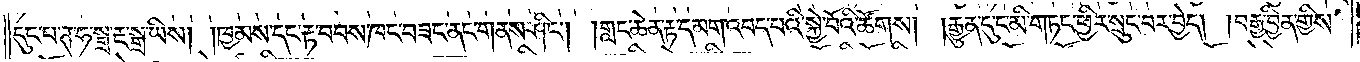དུང་པ་ཊ་ཧ་སྒྲ་རྔ་སྒྲ་ཡིས། །ཁྱམས་དང་རྟ་བབས་ཁང་བཟང་ནང་གནས་ཤིང༌། །གླང་ཆེན་རྟ་དམག་འབད་པའི་སྐྱེ་བོའི་ཚོགས། །རྒྱུན་དུ་ང་མི་གཏང་ཕྱིར་སྲུང་བར་བྱེད། །བརྒྱ་བྱིན་གྱིས་
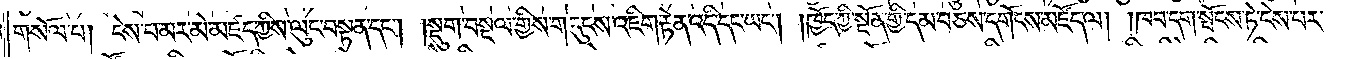གསོལ་པ། དེས་པ་མར་མེ་མཛད་ཀྱིས་ལུང་བསྟན་དང༌། །སྡུག་བསྔལ་གྱིས་གདུངས་འཇིག་རྟེན་འདི་དང་ཡང༌། །ཁྱོད་ཀྱི་སྔོན་གྱི་དམ་བཅས་དགོངས་མཛོད་ལ། །ཁབ་དག་སྤོངས་ཏེ་ངེས་པར་
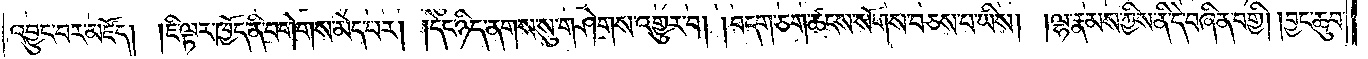འབྱུང་བར་མཛོད། །ཇི་ལྟར་ཁྱོད་ནི་བགེགས་མེད་པར། །དེང་ཉིད་ནགས་སུ་གཤེགས་འགྱུར་བ། །བདག་ཅག་ཚངས་སོགས་བཅས་པ་ཡིས། །ལྷ་རྣམས་ཀྱིས་ནི་དེ་བཞིན་བགྱི། །བྱང་ཆུབ་
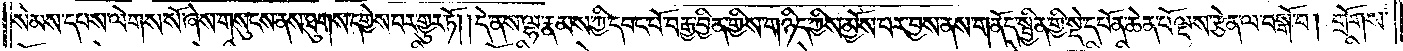སེམས་དཔས་ལེགས་སོ་ཞེས་གསུངས་ནས་ཐུགས་དགྱེས་པར་འགྱུར་ཏོ། །དེ་ནས་ལྷ་རྣམས་ཀྱི་དབང་པོ་བརྒྱ་བྱིན་གྱིས་གཉིད་ཀྱིས་མྱོས་པར་བྱས་ནས་གནོད་སྦྱིན་གྱི་སྡེ་དཔོན་ཆེན་པོ་ལྔས་རྩེན་ལ་བསྒོ་བ། སྒྲོགས་
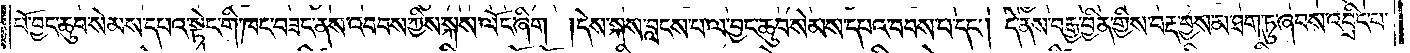པོ་བྱང་ཆུབ་སེམས་དཔའ་སྟེང་གི་ཁང་བཟང་ནས་འབབས་ཀྱིས་སྐས་ལོང་ཞིག །དེས་སྐས་བླངས་པ་ལ་བྱང་ཆུབ་སེམས་དཔའ་བབས་པ་དང༌། དེ་ནས་བརྒྱ་བྱིན་གྱིས་བརྡ་བྱས་མ་ཐག་ཏུ་ཞབས་འབྲིང་པ་
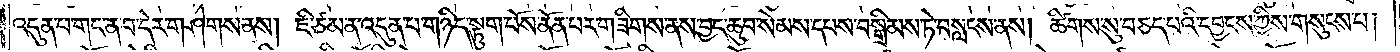འདུན་པ་གང་ན་བ་དེར་གཤེགས་ནས། ཇི་ཙམ་ན་འདུན་པ་གཉིད་སྟུག་པོས་ནོན་པར་གཟིགས་ནས་བྱང་ཆུབ་སེམས་དཔས་བསྒྲིམས་ཏེ་བསླངས་ནས། ཚིགས་སུ་བཅད་པའི་དབྱངས་ཀྱིས་གསུངས་པ།
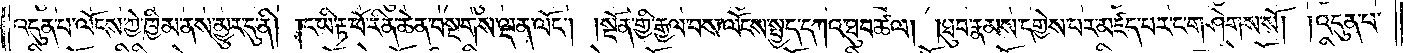འདུན་པ་ལོངས་ཀྱེ་ཁྱིམ་ནས་མྱུར་དུ་ནི། །ང་ཡི་རྟ་ཕོ་རིན་ཆེན་བསྔགས་ལྡན་ལོང༌། །སྔོན་གྱི་རྒྱལ་བས་ལོངས་སྤྱད་དཀའ་ཐུབ་ཚལ། །ཐུབ་རྣམས་དགྱེས་པར་མཛད་པར་ང་གཤེགས་སོ། །འདུན་པ་
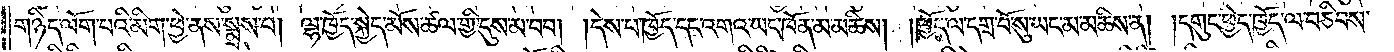གཉིད་ལོག་པའི་མིག་ཕྱེ་ནས་སྨྲས་པ། ལྷ་ཁྱོད་སྐྱེད་མོས་ཚལ་གྱི་དུས་མ་བབ། །དེས་པ་ཁྱོད་དང་འགའ་ཡང་ཁོན་མ་མཆིས། །ཁྱོད་ལ་དགྲ་བོ་སུ་ཡང་མ་མཆིས་ན། །དགུང་ཕྱེད་ཁྱོད་ལ་བཅིབས་
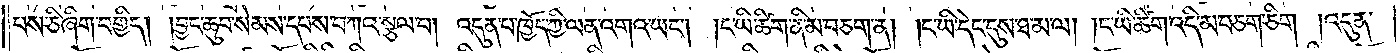པས་ཅི་ཞིག་བགྱིད། །བྱང་ཆུབ་སེམས་དཔས་བཀའ་སྩལ་པ། འདུན་པ་ཁྱོད་ཀྱི་ལན་འགའ་ཡང༌། །ང་ཡི་ཚིག་ནི་མ་བཅག་ན། །ང་ཡི་དེང་དུས་ཐ་མ་ལ། །ང་ཡི་ཚིག་འདི་མ་བཅག་ཅིག །འདུན་
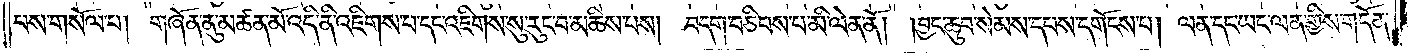པས་གསོལ་པ། གཞོན་ནུ་མཚན་མོ་འདི་ནི་འཇིགས་པ་དང་འཇིགས་སུ་རུང་བ་མཆིས་པས། བདག་བཅིབས་པ་མི་ལེན་ནོ། །བྱང་ཆུབ་སེམས་དཔས་དགོངས་པ། ལན་དང་ཡང་ལན་གྱིས་གདོན་
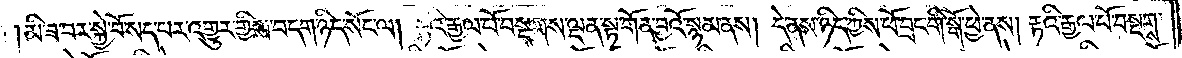མི་ཟ་བར་སྐྱེ་བོ་སད་པར་འགྱུར་གྱིས་བདག་ཉིད་སོང་ལ། རྟའི་རྒྱལ་པོ་བསྔགས་ལྡན་སྟ་གོན་བྱའོ་སྙམ་ནས། དེ་ནས་ཉིད་ཀྱིས་ཕོ་བྲང་གི་སྒོ་ཕྱེ་ནས། རྟའི་རྒྱལ་པོ་བསྔགས་
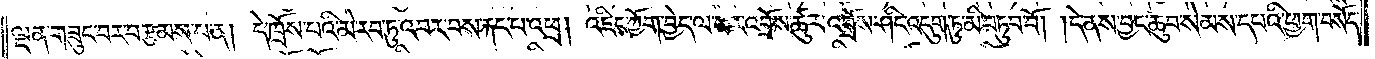ལྡན་གཟུང་བར་བརྩམས་པ་ན། དེ་ཁྲོས་པའི་མེ་རབ་ཏུ་འབར་བས་རྐང་པ་འཕྲ། འཇིང་ཀྱོག་བྱེད་ལ་ཕར་འབྲོས་ཚུར་འབྲོས་ཤིང་འདུག་ཏུ་མི་བཏུབ་བོ། །དེ་ནས་བྱང་ཆུབ་སེམས་དཔའི་ཕྱག་བསོད་
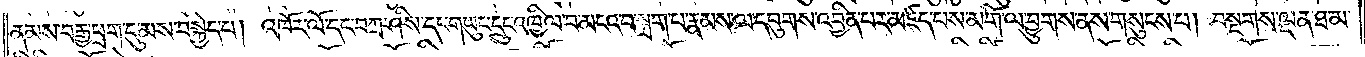ནམས་བརྒྱ་ཕྲག་དུ་མས་བསྐྱེད་པ། འཁོར་ལོ་དང་བཀྲ་ཤིས་དང་གཡུང་དྲུང་འཁྱིལ་བ་མངའ་བ་སྐྲག་པ་རྣམས་ལ་དབུགས་འབྱིན་པར་མཛད་པས་མགོ་ལ་བྱུགས་ནས་གསུངས་པ། བསྔགས་ལྡན་ཐ་མ་
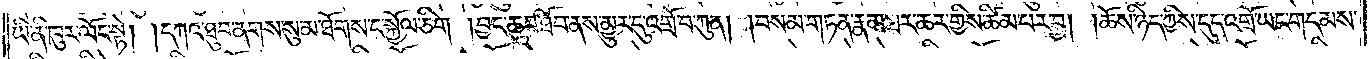ཡི་ནི་ཁུར་ལོང་སྟེ། །དཀའ་ཐུབ་ནགས་སུ་མ་ཐོགས་ང་སྐྱོལ་ཅིག །བྱང་ཆུབ་ཐོབ་ནས་མྱུར་དུ་འགྲོ་བ་ཀུན། །བསམ་གཏན་རྣམ་ཐར་ཆར་གྱིས་ཚིམ་པར་བྱ། །ཆོས་ཉིད་ཀྱིས་དུད་འགྲོ་ཡང་གདམས་
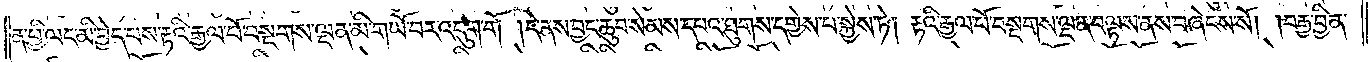ན་ཕྱི་ལང་མི་བྱེད་པས་རྟའི་རྒྱལ་པོ་བསྔགས་ལྡན་མི་གཡོ་བར་འདུག་གོ །དེ་ནས་བྱང་ཆུབ་སེམས་དཔའ་ཐུགས་དགྱེས་པ་སྐྱེས་ཏེ། རྟའི་རྒྱལ་པོ་བསྔགས་ལྡན་བལྟས་ནས་བཞེངས་སོ། །བརྒྱ་བྱིན་
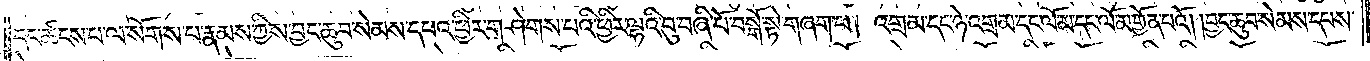དང་ཚངས་པ་ལ་སོགས་པ་རྣམས་ཀྱིས་བྱང་ཆུབ་སེམས་དཔའ་ཕྱིར་གཤེགས་པའི་ཕྱིར་ལྷའི་བུ་བཞི་པོ་བསྒོ་སྟེ་གཞག་པ། འགྲམ་དང་ཉེ་འགྲམ་དང་ལོ་མ་དང་ལོ་མ་གྱོན་པའོ། །བྱང་ཆུབ་སེམས་དཔས་
